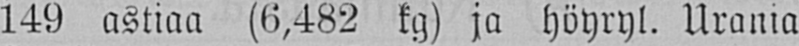149 astiaa (6,482 kg) ja höyryl. Urania
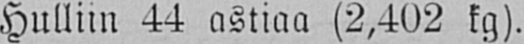Hulliin 44 astiaa (2,402 kg).
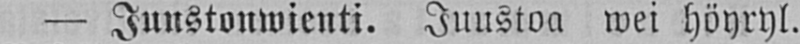— Juustonwienti. Juustoa wei höyryl.
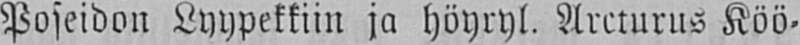Poseidon Lyypekkiin ja höyryl. Arcturus Köö-
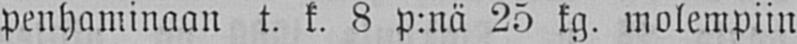penhaminaan t. k. 8 p:nä 25 kg. molempiin
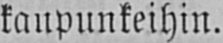kaupunkeihin.
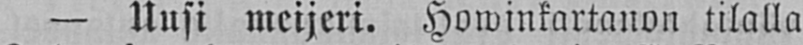— Uusi meijeri. Howinkartanon tilalla
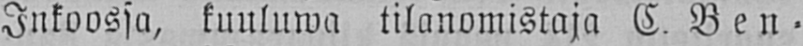Inkoossa, kuuluwa tilanomistaja C. Ben-
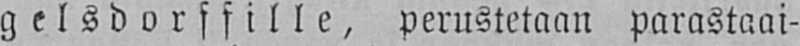gelsdorffille, perustetaan parastaai-
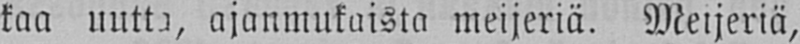kaa uutta, ajanmukaista meijeriä. Meijeriä,
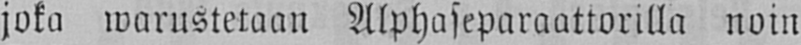joka warustetaan Alphaseparaattorilla noin
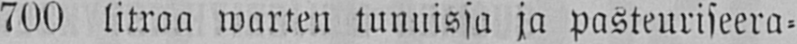700 litraa warten tunnissa ja pasteuriseera-
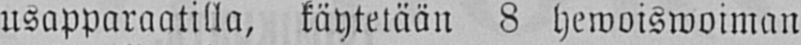usapparaatilla, käytetään 8 hewoiswoiman
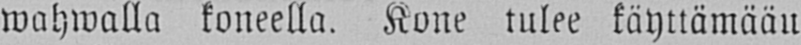wahwalla koneella. Kone tulee käyttämääu
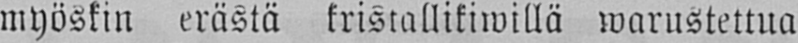myöskin erästä kristallikiwillä warustettua
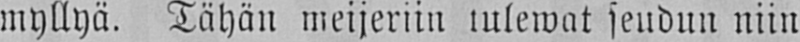myllyä. Tähän meijeriin tulewat seudun niin
